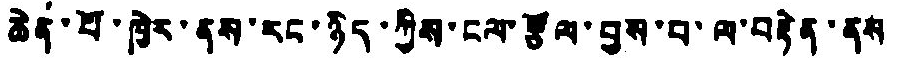ཆེན་པོ་ཁྱེར་ནས་རང་ཉིད་ཀྱིས་ངལ་རྩོལ་བྱས་པ་ལ་བརྟེན་ནས
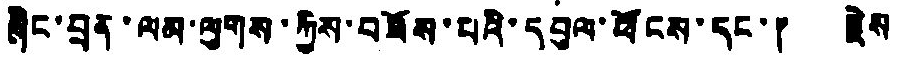ཞིང་བྲན་ལམ་ལུགས་ཀྱིས་བཟོས་པའི་དབུལ་ཕོངས་དང་། རྗེས
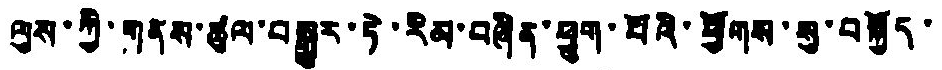ལུས་ཀྱི་གནས་ཚུལ་བསྒྱུར་ཏེ་རིམ་བཞིན་ཕྱུག་པོའི་ཕྱོགས་སུ་བསྐྱོད་
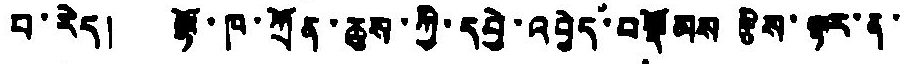བ་རེད། ལྷོ་ཁ་ཀྲོན་ཆུས་ཀྱི་དབྱེ་འབྱེད་བསྡོམས རྩིས་ལྟར་ན་
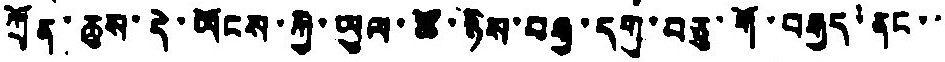ཀྲོན་ཆུས་དེ་ཡོངས་ཀྱི་ཡུལ་ཚོ་ཉིས་བརྒྱ་དགུ་བཅུ་གོ་བརྒྱད་ནང་་
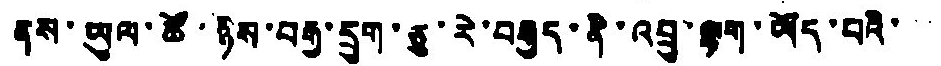ནས་ཡུལ་ཚོ་ཉིས་བརྒྱ་དྲུག་ཅུ་རེ་བརྒྱད་ནི་འབྲུ་ལྷག་ཡོད་པའི་་་
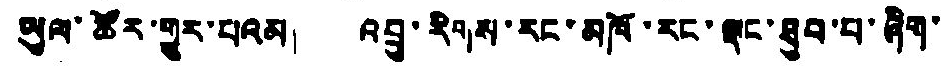ཡུལ་ཚོར་གྱུར་པའམ། འབྲུ་རིགས་རང་མཁོ་རང་སྡང་ཐུབ་པ་ཞིག་
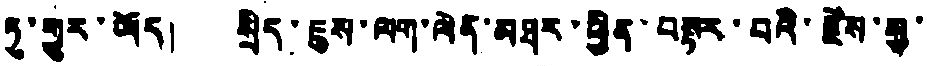ཏུ་གྱུར་ཡོད། སྲིད་ཇུས་ལག་ལེན་མཐར་ཕྱིན་བསྟར་བའི་རྫེས་སུ་
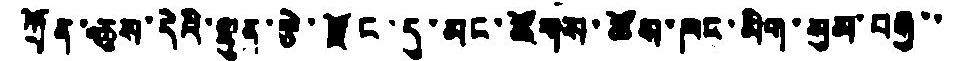ཀྲོན་ཆུས་དེའི་ལྷུན་རྩེ་རྫོང་དུ་མང་རྫོགས་ཚོས་ཁང་མིག་སུམ་བརྒྱ་་
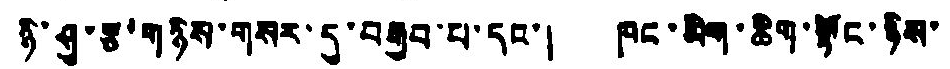ཉི་ཤུ་རྩ་གཉིས་གསར་དུ་བརྒྱབ་པ་དང་། ཁང་མིག་ཆིག་སྟོང་ཉིས་
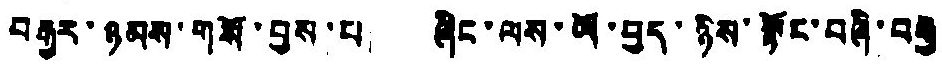བརྒྱར་ཉམས་གསོ་བྱས་པ། ཞིང་ལས་ཡོ་བྱད་ཉིས་སྟོང་བཞི་བརྒྱ
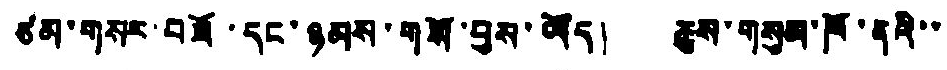ཙམ་གསར་བཟོ་དང་ཉམས་གསོ་བྱས་ཡོད། ཆུས་གསུམ་ཁོ་ནའི་་
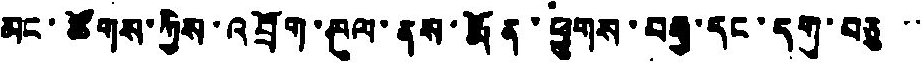མང་ཚོགས་ཀྱིས་འབྲོག་ཁུལ་ནས་རྨོན་ཕྱུགས་བརྒྱ་དང་དགུ་བཅུ་་་
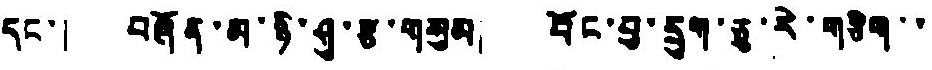དང་། བཞོན་མ་ཉི་ཤུ་རྩ་གསུམ། བོང་བྱ་དྲུག་ཅུ་རེ་གཅིག་་
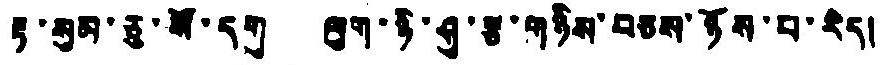རྟ་སུམ་ཅུ་སོ་དགུ ལུག་ཉི་ཤུ་རྩ་གཉིས་བཅས་ཉོས་པ་རེད།
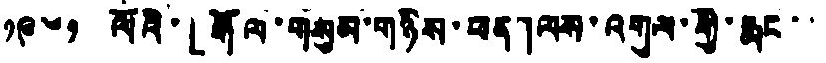༡༩༦༡ ལོའི་「རྒོལ་གསུམ་གཉིས་ཕན」ལས་འགུལ་གྱི་རྨང་་
